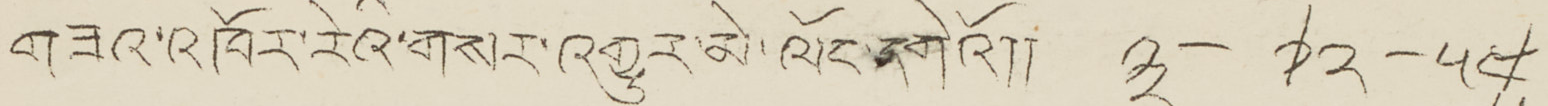གཟའ་འཁོར་རེའི་གསར་འགྱུར་མེ་ལོང་དགེའོ།། ༣-༡༢-༥༤
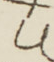༥
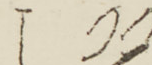། ༡༡
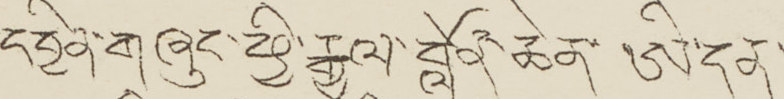དབྱིན་གཞུང་ཕྱི་རྒྱལ་བློན་ཆེན་ཨི་དན་
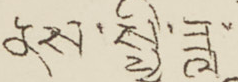ནས་སྤྱི་ཟླ་
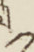༡
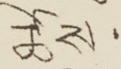ཚེས་
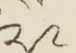༢༩
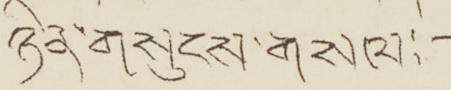ཉིན་གསུངས་གསལ:—
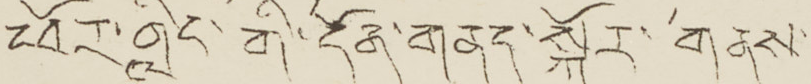ཕོར་གླིང་གི་དོན་གནད་སྐོར་གནས་
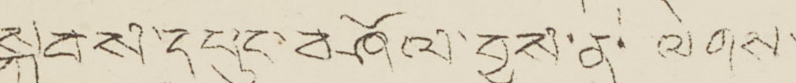སྐབས་དཔུང་བཤོལ་བྱས་ན་ལེགས་
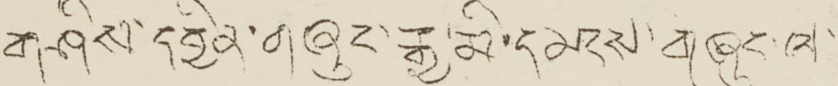གཤིས་དབྱིན་གཞུང་རྒྱ་མི་དམངས་གཞུང་ལ་
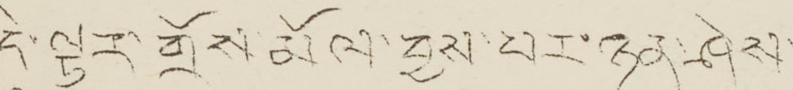དེ་ལྟར་གྲོས་མོལ་བྱས་པའི་ཉན་ཤེས་
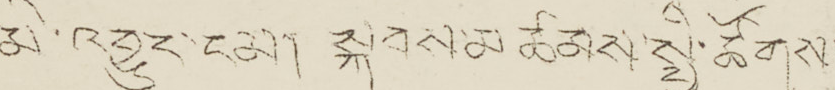མི་འགྱུར་ངམ། སྐབས་མཚམས་སྤྱི་ཚོགས་
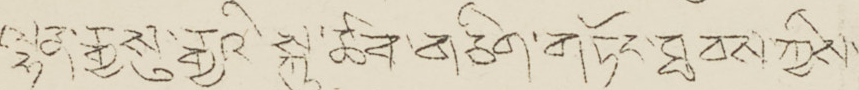ལྷན་རྒྱསུ་རྒྱའི་སྐུ་ཚབ་གཅིག་གཏོང་ཐབས་ཀྱིས་
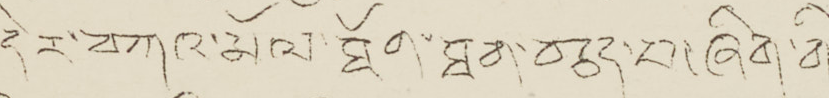དེར་བཀའ་མོལ་ཐོག་ཐག་བཅད་བ་ཞིག་གི་
